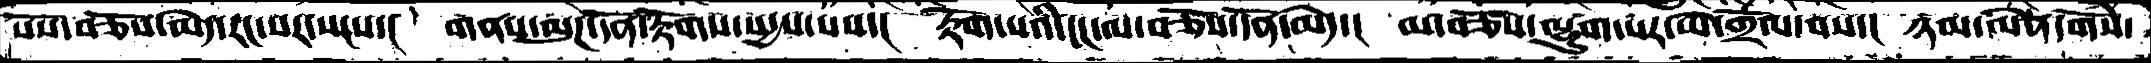པོས་བཅོས་མེད་རང་སར་སངས་།  གནས་ལུཌ་དོན་རྟོགས་སདྱས་པས་།  རྟོག་པའི་ངང་ལ་བཅོས་དོན་མེད་།  མ་བཅོས་ལྷུག་པར་ཡེ་གྲོལ་བས་།  ཉམ་ལེན་དགོས་
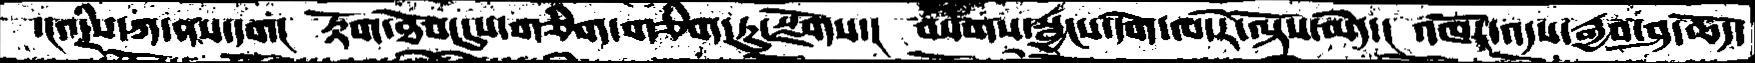་།འདྲིས་ཀ་ནས་དག།  རྟོག་ཐོབ་དུས་གཅིག་གཅིག་ཏུ་སྫོགས་།  བསགས་སྦྱངས་དག་ལ་རེ་ལྟོས་མེད་།  འཁོར་འདས་རྒྱབ་ཤ་ཆོད་
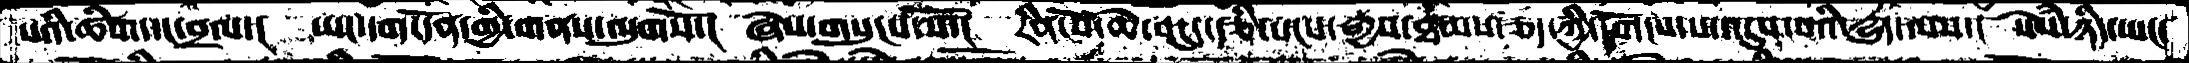པའི་ཚིག་དང་བྲལ་།  ཡང་དག་དོན་གྱི་གནས་ལུགསོ་།  ཞེས་གསུངས་སོ་།  རིན་པོ་ཆེ་བདུད་རྩི་སངས་རྒྱས་ཐམས་ཅད་ཀྱི་དགོངས་པ་འདུས་པའི་རྒྱུད་ལས་།  སེཾས་ཉིད་ཡང་
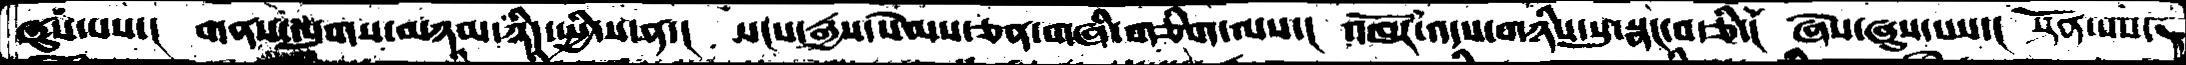ཞུས་པས་།  གནས་ལུགས་མཉམ་ཉིད་སྤྱི་ས་ན་།  སངས་རྒྱས་སེམས་ཅན་གཞི་གཅིག་ལས་།  འཁོར་འདས་གཉིས་སུ་སྣང་བ་ཅི་།  ཞེས་ཞུས་པས་།  སྟོན་པས་
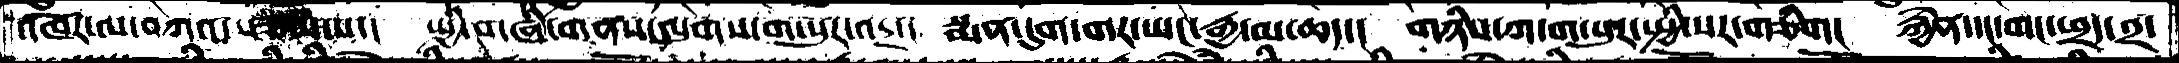འཁོར་ལ་བཀའ་སྩལ་པ་།  སྤྱི་གཞི་གནས་ལུགས་ག་པུར་འདྲ་།  སྨན་དུག་གར་ཡང་རྒྱ་མ་ཆད་།  གཉིས་ཀ་ག་པུར་སྤྱི་སར་གཅིག།  རྐྱེན་དང་གང་ཕྲད་༢་
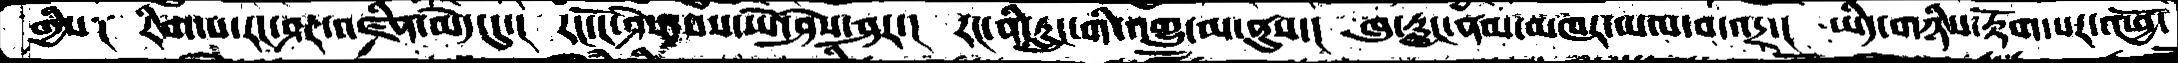གྱིས༑  རིག་པ་རང་ཤར་འཛིན་མེད་དུ་།  རང་ངོ་ཤེས་པས་ཡེ་ཤེས་ཤར་།  རང་ནི་རླུང་གི་འགྱུ་མ་ནུས་།  ཁུ་རླུང་ནམ་མཁར་མལ་བ་འདྲ་།  ཡིད་གཉིས་རྟོག་པར་འཕྱོ་
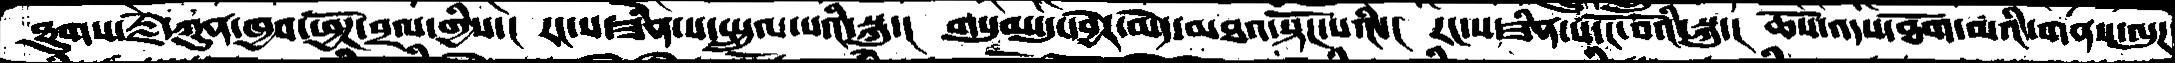ཐུགས་རྗེ་ཀུན་ཁྱབ་ཕྱོཌ་བྲལ་གྱིས་།  རང་ས་ཟིན་པ་སྤྲུལ་པའི་སྐུ་།  གསུམ་དུ་དབྱེར་མེད་མཐའ་སྟོང་པའི་།  རང་ས་ཟིན་པ་ངོ་བོའི་སྐུ་།  ཆོས་འདས་ཐོག་མའི་གནས་ལུཌ་
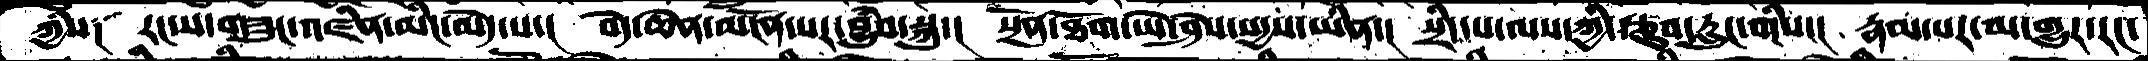ཀྱིས༑  རང་ས་གཟུང་འཛིན་མིང་མེད་པ་།  བདེ་ཆེན་མངོན་པར་བྱུཾབ་སྐུ་།  སྔོན་ཐོག་ཡེ་ཤེས་སདྱས་ཡིན་།  སྲིད་པ་ལས་ཀྱི་རྩུབ་རླུང་གིས་།  རྣམ་པར་མ་གྱུར་རང་
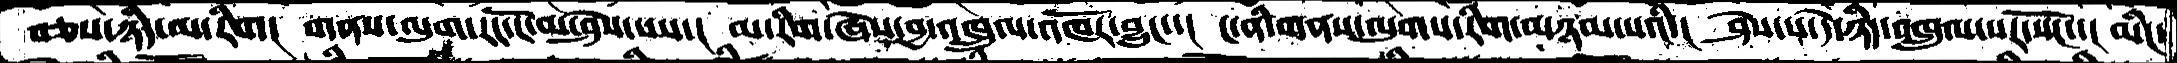བཅས་ཉིད་མ་རིག།  གནས་ལུག་རང་ངོ་མ་ཤེས་པས་།  མ་རིག་ཞེས་བྱ་འཁྲུལ་འཁོར་བྱུང་་།  ང་ནི་གནས་ལུགས་རིག་མཉམ་པའི་།  ཤེས་པ་དེ་ཉིད་འཁྲུལ་སར་སོང་་།  མིང་
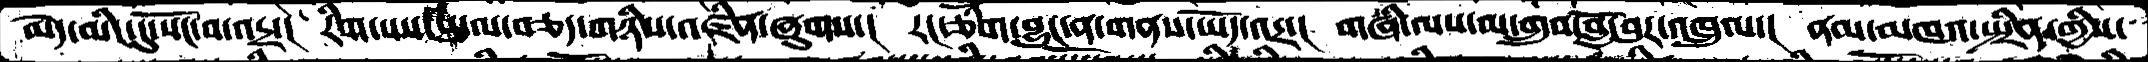མེད་མིང་དུ་སོང་བ་འདྲ་། རིག་པས་ཡུལ་བཅད་གཉིས་འཛིན་ཞུགས་།  རང་ཅིག་བྱུང་ན་གནས་ཡོད་འདྲ། གཞི་ལས་མ་གྲུབ་བློ་བུར་འཁྲུལ་། ནམ་མཁའ་སྤྲིན་གྱིས་
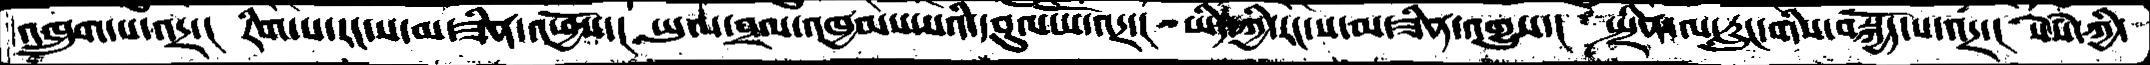འཁྲུག་པ་འདྲ་།  རིག་པ་རང་ས་མ་ཟིན་འཕྱོས་།  ཡུལ་བྲལ་འཁྱམས་པའི་དབུལ་པོ་འདྲ་།  ཡིད་ཀྱི་རང་ས་མ་ཟིན་འགྱུས་།  སྤྲིན་ལ་རླུང་གིས་བསྐྱོད་པ་འདྲ་།  སེཾས་ཀྱི་
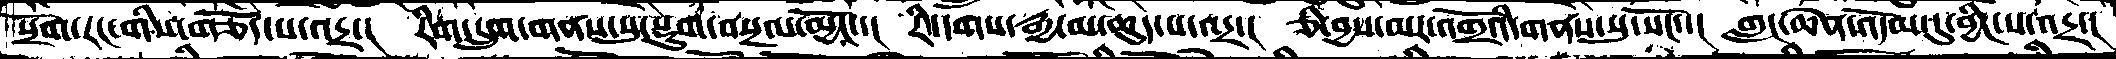སྲོག་རང་གིས་གཅོད་པ་འདྲ་།  རིག་དྲུག་གནས་སུ་སྡུག་བསྔལ་མྱོང་་།  རི་དགས་རྒྱ་མ་ཆུད་པ་འདྲ་།  ཅི་བྱས་མར་འགྲོའི་གནས་སུ་སོང་་།  གླང་ཆེན་འདོམ་དུ་བྱིང་པ་འདྲ་།
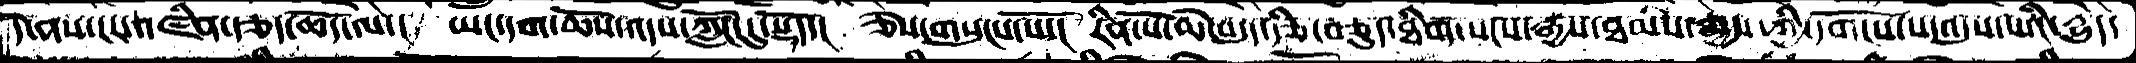དེ་ནས་རང་འཛིན་རྩད་ཆོད་ལ་།  ཡང་དག་ཆོས་འདས་ཀློང་དུ་སྡོད་།  ཅེས་གསུངས་སོ་།  རིན་པོ་ཆེ་བདུད་རྩི་བཅུད་ཐིག་སངས་རྒྱས་ཐམས་ཅད་ཀྱི་དགོངས་པ་འདུས་པའི་དྱུད་
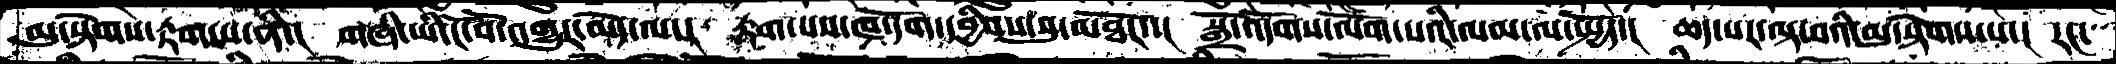མུ་སྟེགས་རྟག་པ་ནི་།  གཞི་ཡི་ངོ་བོ་འགྱུར་མེད་ལ་།  རྟག་པས་ཁ་དོག་དབྱིབས་སུ་མཐོང་་།  སྒྲོ་འདོགས་ལོག་པའི་ལམ་ལ་སྤྱོད་།  ཆད་པར་ལྟ་བའི་མུ་སྟེགས་པ་།  རང་
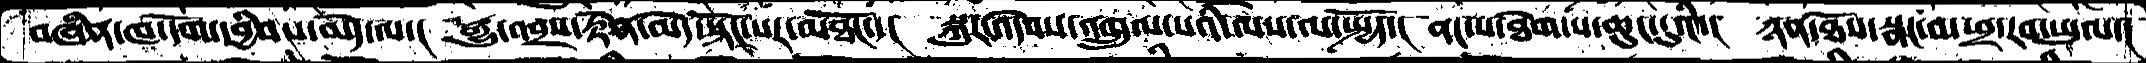བཞིན་ཁ་དོག་དབྱིབས་མེད་ལ་།  རྒྱུ་འབྲས་རྟེན་མེད་སྟོང་པར་མཐོང་།  སྐུར་འདེབས་འཁྲུལ་པའི་ལས་ལ་སྤྱོད་།  ནང་པ་ཐེག་པ་ཆུང་ངུའི་།  ཉན་ཐོས་སྣང་བ་ཕྲ་རབ་ཡུལ་།
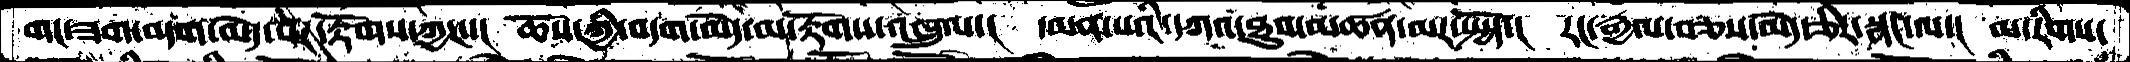གང་ཟག་བདག་མེད་སོར་རྟོགས་ཀྱང་་།  ཆོས་ཀྱི་བདག་མེད་མ་རྟོགས་འཁྲུལ་།  དམན་པའི་དཀའ་ཐུབ་མཚན་མར་སྤྱོད་།  རང་རྒྱལ་བཅས་མེད་ཅིར་སྣང་ལ་།  མ་རིགས་
